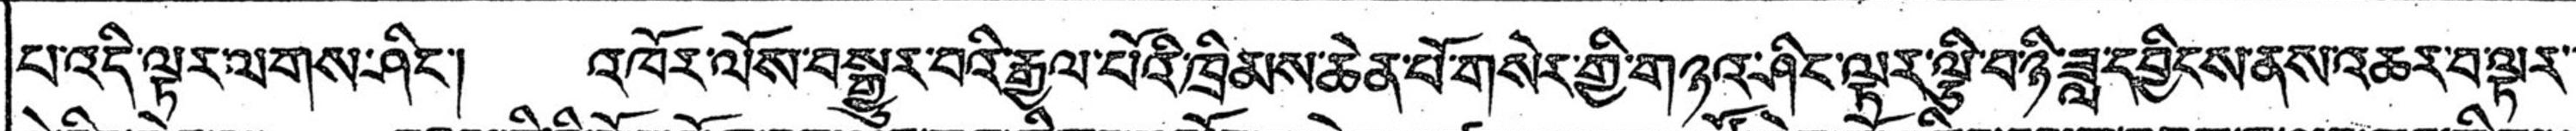པ་འདི་ལྟར་ལགས་ཤིང་། འཁོར་ལོས་བསྒྱུར་བའི་རྒྱལ་པོའི་ཁྲིམས་ཆེན་པོ་གསེར་གྱི་གཉའ་ཤིང་ལྟར་ལྕི་བ་ཉི་ཟླ་དབྱིངས་ནས་འཆར་བ་ལྟར་་
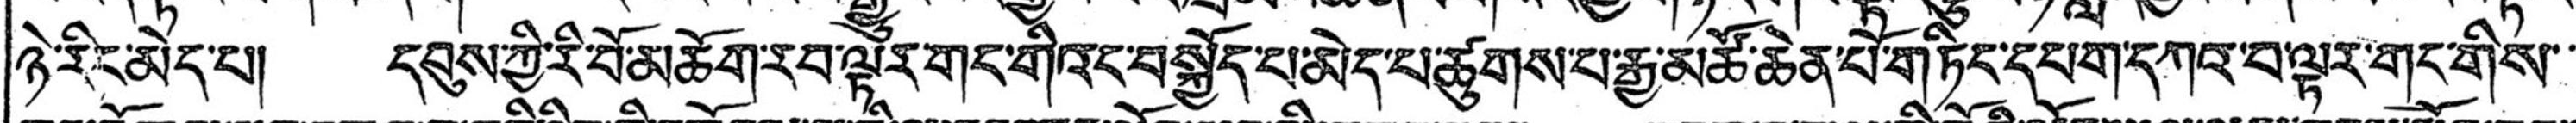ཉེ་རིང་མེད་པ། དབུས་ཀྱི་རི་བོ་མཆོག་རབ་ལྟར་གང་གིའང་བསྐྱོད་པ་མེད་པ་ཚུགས་པ་རྒྱ་མཚོ་ཆེན་པོ་གཏིང་དཔག་དཀའ་བ་ལྟར་གང་གིས་་་
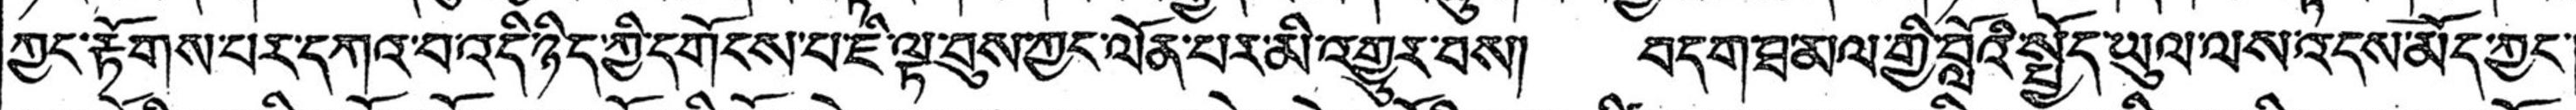ཀྱང་རྟོགས་པར་དཀའ་བ་འདི་ཉིད་ཀྱི་དགོངས་པ་ཇི་ལྟ་བུས་ཀྱང་ལོན་པར་མི་འགྱུར་བས། བདག་ཐ་མལ་གྱི་བློའི་སྤྱོད་ཡུལ་ལས་འདས་མོད་ཀྱང་།
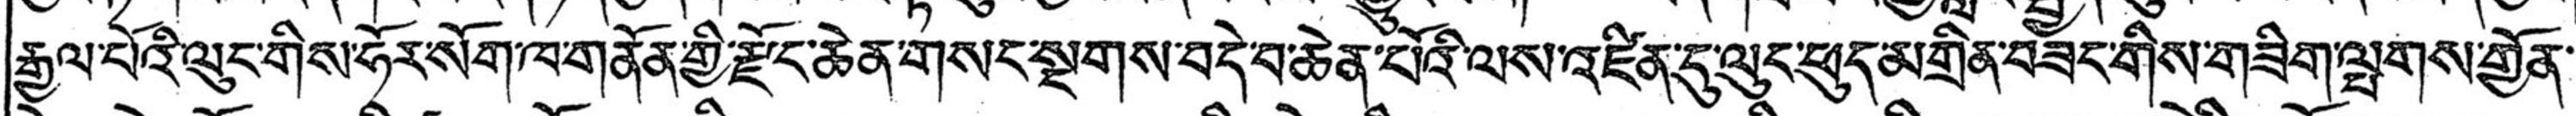རྒྱལ་པོའི་ལུང་གིས་ཧོར་སོག་ཁ་་གནོན་གྱི་རྫོང་ཆེན་གསར་སྔགས་བདེ་བ་ཆེན་པོའི་ལས་འཛིན་དུ་ལུང་ཕུད་མགྲིན་བཟང་གིས་གཟིག་ལྤགས་གྱོན་་
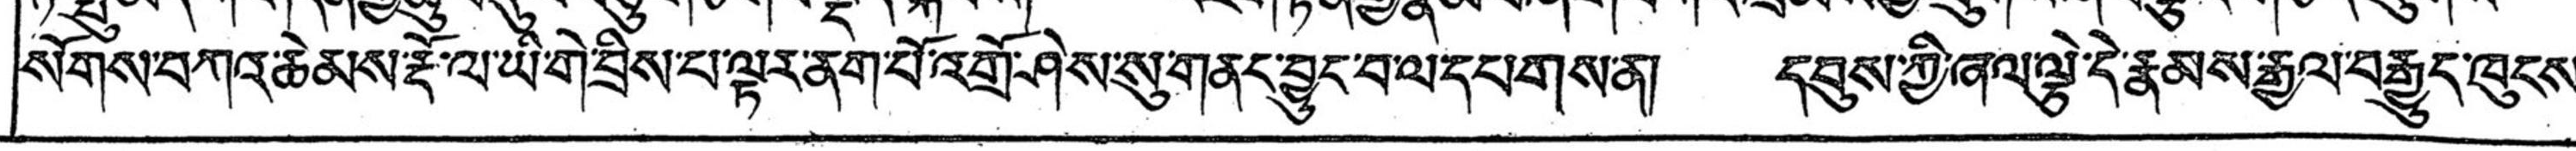སོགས་བཀའ་ཆེམས་རྡོ་ལ་ཡི་གེ་བྲིས་པ་ལྟར་ནག་པོ་འགྲོ་ཤེས་སུ་གནང་བྱུང་བ་ལ་དཔགས་ན། དབུས་ཀྱི་ཞལ་ལྕེ་དེ་རྣམས་རྒྱལ་བརྒྱུད་ཁུངས་
